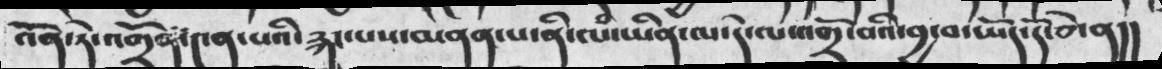འོན་ཏེ་འགྲོན་༤ན་པའི་རྐང་པས་མནན་པ་ནི་ལཾ་ཡིན་ལ་དེ་ལ་འགྲོ་བའི་བྱ་བ་ཡོད་དོ་ཅེ་ན།།
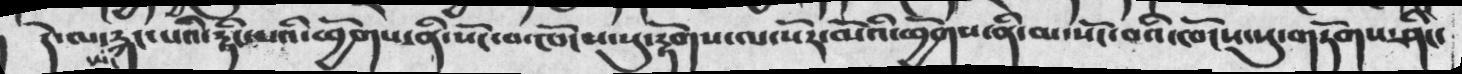།  དེ་ལ་ཡང་རྐང་པའི་རྟིང་མའི་ཕྱོགས་ནི་སོང་བ་ཁོངས་སུ་རྟོགས་ལ་སོར་མོའི་ཕྱོགས་ནི་མ་སོང་བའི་ཁོངས་སུ་གཏོགས་ཤིང་
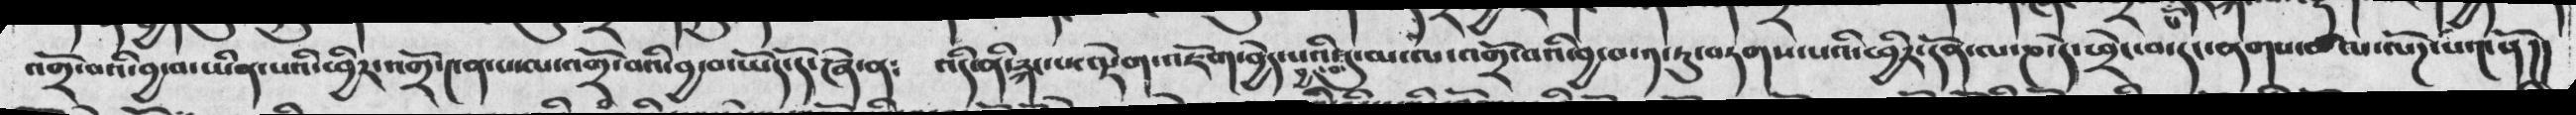འགྲོ་བའི་བྱ་བ་ཡིན་པའི་ཕྱིར་འགྲོ་༤ན་པ་ལ་འགྲོ་བའི་བྱ་བ་ཡོད་དོ་ཞེ་ན༴   འདི་ནི་རྐང་ལྟེག་འཇོག་བྱེད་པའི་བྱ་བ་དུ་མ་ལ་འགྲོ་བའི་བྱ་བ་༡་ཏུ་བཏགས་པའི་ཕྱིར་དོན་ལ་ཎ་དེ་ཕྲེང་བ་དང་ནགས་ཚལ་ལོཌ་པ་༤ནོ།།
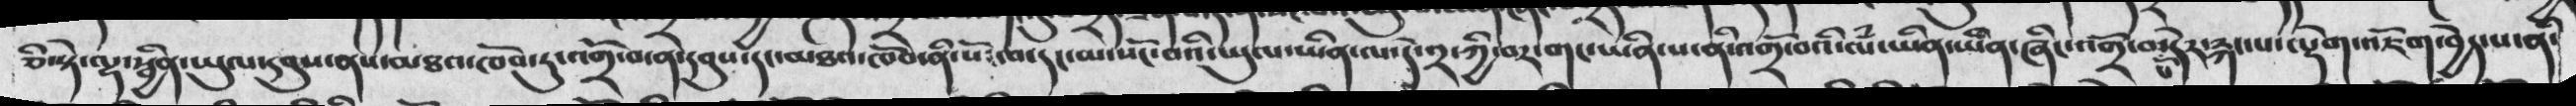ཅི་སྟེ་ལྷ་སྦྱིན་ཡུལ་དབུས་ནས་མཐའ་ཁོབ་ཏུ་འགྲོ་བ་ན་དབུས་དང་མཐའ་ཁོབ་ནི་སོང་བ་དང་མ་སོང་བའི་ཡུལ་ཡིན་ལ་དེ་༢་ཀྱི་བར་གང་ཡིན་པ་ནི་འགྲོ་བའི་ལཾ་ཡིན་ཡིན་ཞིང་འགྲོ་བ་པོ་དེར་རྐང་པ་ལྡེག་འཇོག་བྱེད་པ་ནི་
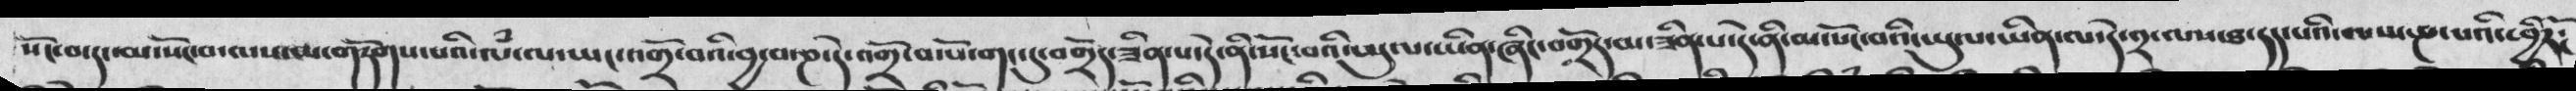སོང་བ་དང་མ་སོང་བ་ལས་མ་གཏོགས་པའི་ལཾ་ལ་ཡང་འགྲོ་བའི་བྱ་བ་ཎ་དེ་འགྲོ་བ་སོ་གང་དུ་བགྲོད་ཟིན་པ་དེ་ནི་སོང་བའི་ཡུལ་ཡིན་ཞིང་བགྲོད་མ་ཟིན་པ་དེ་ནི་མ་སོང་བའི་ཡུལ་ཡིན་ལ་དེ་༢་ལས་ཐ་དད་པའི་ལམ་ཎ་པའི་ཕྱིརོ༴
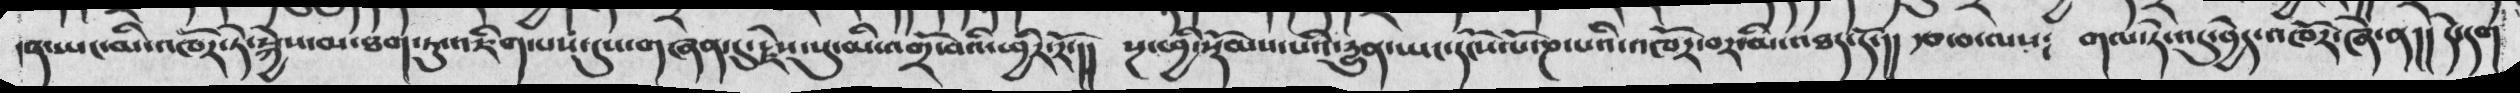ན་ཡང་མི་འཁོར་ཏེ་སྐྱེས་མ་ཐག་ཏུ་འཇིག་པས་དུས་གཞན་དུ་རྗེས་སུ་མི་འགྲོ་བའི་ཕྱིར་རོ་།། སྔ་ཕྱི་སྡོམས་པའི་དྱུན་ཡང་དངོས་པོ་ཎ་པའི་འཁོར་བར་མི་འཐད་དོ་།། རྩ་བ་ལས༴ གལ་ཏེ་འདུ་བྱེད་འཁོར་ཞེ་ན།། དེ་དག
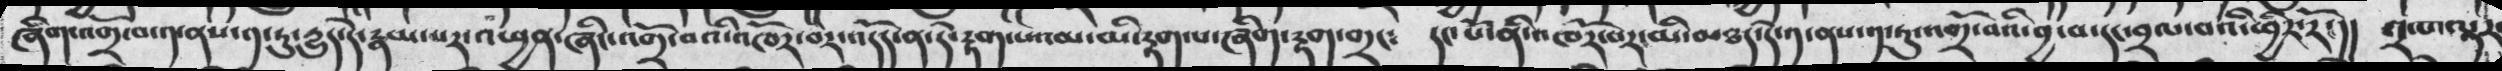ཞིག་འགྲོ་བ་༡་ནས་༡་ཏུ་དྱུད་དེ་རྣམ་པར་འཕྱན་ཞིང་འགྲོ་བའི་འཁོར་བར་འདོད་ན་དེ་རྟག་པའམ་མི་རྟག་པ་ཞིག་རྟག་གྲང༴ དང་པོ་ནི་འཁོར་བར་མི་མཐད་དེ་༡་ནས་༡་ཏུ་འགྲོ་བའི་བྱ་བ་དང་བྲལ་བའི་ཕྱིར་རོ་།། ༢་པ་ལྟར
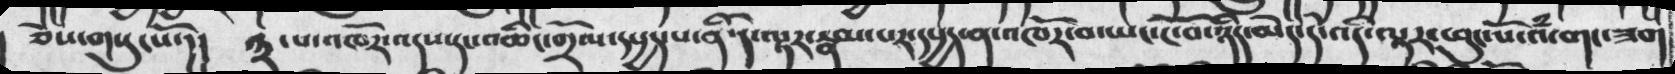ཅེས་གསུངསོ་།། ༣་པ་འཁོར་འདས་དང་འཆིང་གྲོལ་དཔྱད་པ་ནི་དེ་ལྟར་རྣམ་པར་དཔྱད་ན་འཁོར་བ་ཡང་ངོ་བོ་ཉིད་མེད་དེ་འདི་ལྟར་ཕུང་པོ་འཾ་གང་ཟག
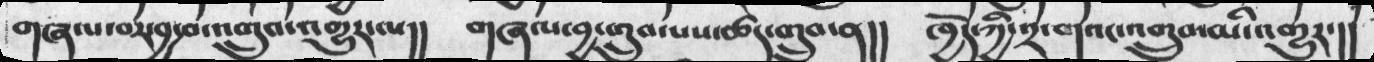གཞལ་བར་བྱ་བ་འགྲུབ་འགྱུར་ལ།། གཞལ་བྱ་གྲུབ་པས་ཚད་གྲུབ་ན།། ཁྱོད་ཀྱི་༢་གའང་འགྲུབ་མི་འགྱུར་།།
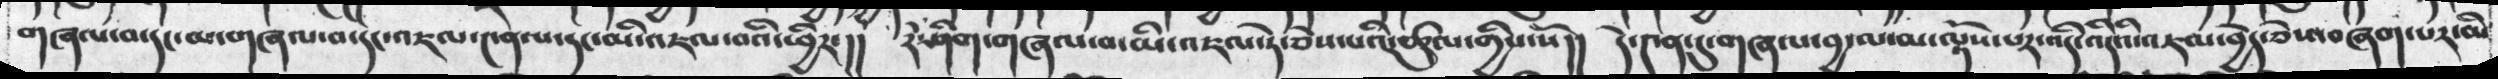གཞལ་བ་དང་མ་གཞལ་བ་དང་འཇལ་༤ན་པ་དང་མི་འཇལ་བའི་ཕྱིར་།། རེ་ཤིག་གཞལ་བ་མི་འཇལ་ཏེ་ཅེས་པའི་ཚུལ་གྱིས་སོ།། དེ་༤ན་དུ་གཞལ་བྱ་ལ་མ་ལྟོས་པར་འདི་འདིའི་འཇལ་བྱེད་ཅེས་བཞག་པར་མི
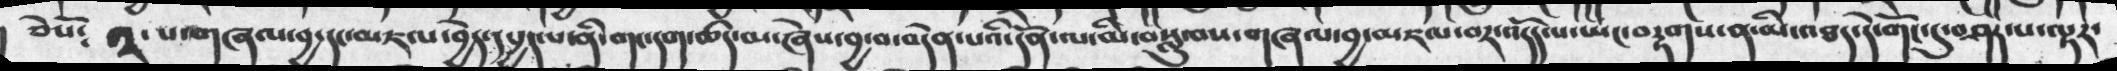ཅེསོ༴  ༢་པ་གཞལ་བྱ་དང་མཇལ་བྱེད་དཔྱད་པ་ནི་གང་དག་ཚད་མ་ཞེས་བྱ་བ་བདེན་པའི་དོན་ལ་མི་བསླུ་བས་གཞལ་བྱ་མཇལ་བར་འདོད་པ་ཡང་བརྟགས་ན་མི་འཐད་དེ་གོང་དུ་བཤད་པ་ལྟར་
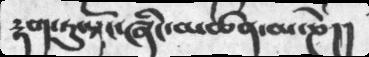རྟག་ཏུ་སྟོང་ཞིང་མཚན་མ་ཎེ།།
